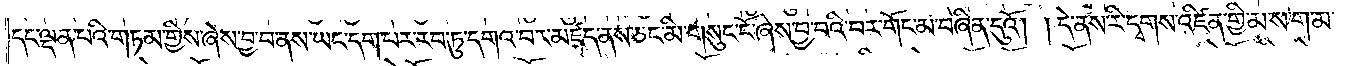དང་ལྡན་པའི་གཏམ་གྱིས་ཞེས་བྱ་བ་ནས་ཡང་དག་པར་རབ་ཏུ་དགའ་བར་མཛད་ནས་ཅང་མི་གསུང་ངོ་ཞེས་བྱ་བའི་བར་གོང་མ་བཞིན་དུའོ། །དེ་ནས་རི་དྭགས་འཛིན་གྱི་མ་ས་ག་མ་
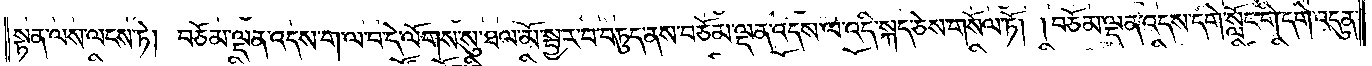སྟན་ལས་ལངས་ཏེ། བཅོམ་ལྡན་འདས་ག་ལ་བ་དེ་ལོགས་སུ་ཐལ་མོ་སྦྱར་བ་བཏུད་ནས་བཅོམ་ལྡན་འདས་ལ་འདི་སྐད་ཅེས་གསོལ་ཏོ། །བཅོམ་ལྡན་འདས་དགེ་སློང་གི་དགེ་འདུན་
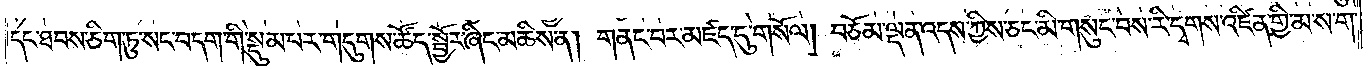དང་ཐབས་ཅིག་ཏུ་སང་བདག་གི་སྡུམ་པར་གདུགས་ཚོད་སྦྱོར་ཞིང་མཆིས་ན། གནང་བར་མཛད་དུ་གསོལ། བཅོམ་ལྡན་འདས་ཀྱིས་ཅང་མི་གསུང་བས་རི་དྭགས་འཛིན་གྱི་མ་ས་ག་
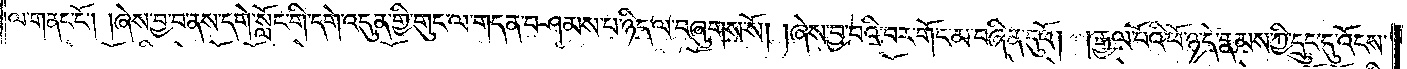ལ་གནང་ངོ༌། །ཞེས་བྱ་བ་ནས་དགེ་སློང་གི་དགེ་འདུན་གྱི་གུང་ལ་གདན་བཤམས་པ་ཉིད་ལ་བཞུགས་སོ། །ཞེས་བྱ་བའི་བར་གོང་མ་བཞིན་དུའོ། །རྒྱལ་པོའི་ཕོ་ཉ་དེ་རྣམས་ཀྱི་དྲུང་དུ་འོངས་
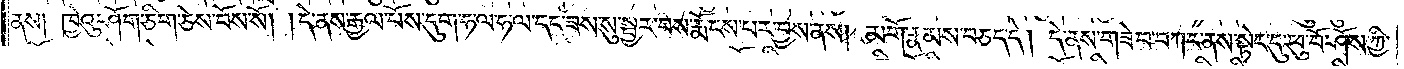ནས། ཁྱེའུ་ཤོག་ཅིག་ཅེས་བོས་སོ། །དེ་ནས་རྒྱལ་པོས་དུག་ཧ་ལ་ལྷ་ལ་དང་ཟས་སུ་སྦྱར་བས་རྨོངས་པར་བྱས་ནས། མགོ་རྣམས་བཅད་དེ། དེ་ནས་གཟེབ་བཀང་ནས་སྟེང་དུ་ཕུ་བོ་ཤོས་ཀྱི་
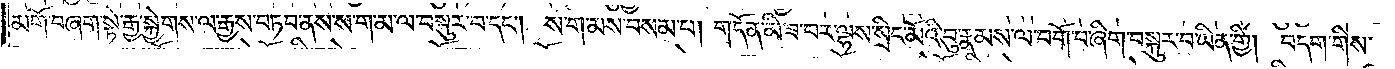མགོ་བཞག་སྟེ་རྒྱ་སྐྱེགས་ལ་རྒྱས་བཏབ་ནས་ས་ག་མ་ལ་བསྐུར་བ་དང༌། ས་ག་མས་བསམ་པ། གདོན་མི་ཟ་བར་ལྷས་སྲིང་མོའི་བུ་རྣམས་ལ་བགོ་བ་ཞིག་བསྐུར་བ་ཡིན་གྱི། བདག་གིས་
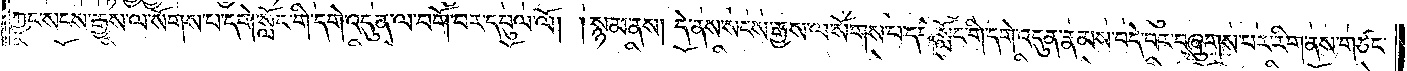ཀྱང་སངས་རྒྱས་ལ་སོགས་པ་དགེ་སློང་གི་དགེ་འདུན་ལ་བགོ་བར་དབུལ་ལོ། །སྙམ་ནས། དེ་ནས་སངས་རྒྱས་ལ་སོགས་པ་དགེ་སློང་གི་དགེ་འདུན་རྣམས་བདེ་བར་བཞུགས་པར་རིག་ནས་གཙང་
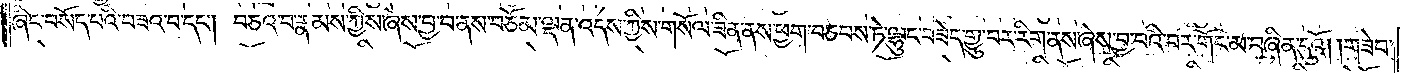ཞིང་བསོད་པའི་བཟའ་བ་དང༌། བཅའ་བ་རྣམས་ཀྱིས་ཞེས་བྱ་བ་ནས་བཅོམ་ལྡན་འདས་ཀྱིས་གསོལ་ཟིན་ནས་ཕྱག་བཅབས་ཏེ་ལྷུང་བཟེད་གྱུར་བར་རིག་ནས་ཞེས་བྱ་བའི་བར་གོང་མ་བཞིན་དུའོ། །གཟེབ་
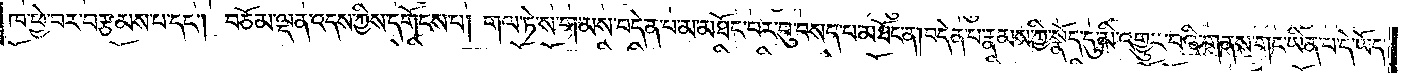ཁ་ཕྱེ་བར་བརྩམས་པ་དང༌། བཅོམ་ལྡན་འདས་ཀྱིས་དགོངས་པ། གལ་ཏེ་ས་ག་མས་བདེན་པ་མ་མཐོང་བར་བུ་བསད་པ་མཐོང་ན། བདེན་པ་རྣམས་ཀྱི་སྣོད་དུ་མི་འགྱུར་བའི་གནས་གང་ཡིན་པ་དེ་ཡོད་
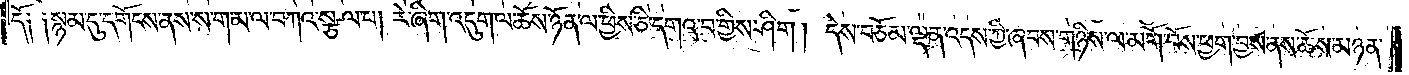དོ། །སྙམ་དུ་དགོངས་ནས་ས་ག་མ་ལ་བཀའ་སྩལ་པ། རེ་ཞིག་འདུག་ལ་ཆོས་ཉོན་ལ་ཕྱིས་ཅི་དགའ་བགྱིས་ཤིག །དེས་བཅོམ་ལྡན་འདས་ཀྱི་ཞབས་གཉིས་ལ་མགོ་བོས་ཕྱག་བྱས་ནས་ཆོས་མཉན་
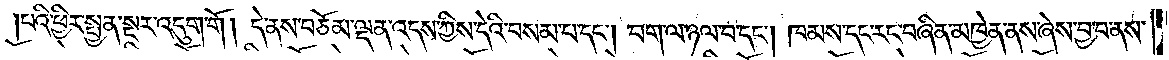པའི་ཕྱིར་སྤྱན་སྔར་འདུག་གོ །དེ་ནས་བཅོམ་ལྡན་འདས་ཀྱིས་དེའི་བསམ་པ་དང༌། བག་ལ་ཉལ་བ་དང༌། ཁམས་དང་རང་བཞིན་མཁྱེན་ནས་ཞེས་བྱ་བ་ནས་
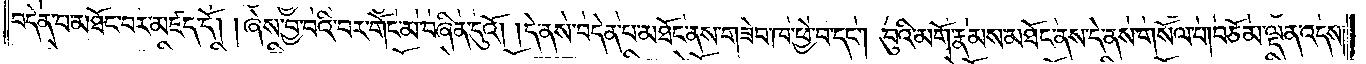བདེན་པ་མཐོང་བར་མཛད་དོ། །ཞེས་བྱ་བའི་བར་གོང་མ་བཞིན་དུའོ། །དེ་ནས་བདེན་པ་མཐོང་ནས་གཟེབ་ཁ་ཕྱེ་བ་དང༌། བུའི་མགོ་རྣམས་མཐོང་ནས་དེ་ནས་གསོལ་བ། བཅོམ་ལྡན་འདས་
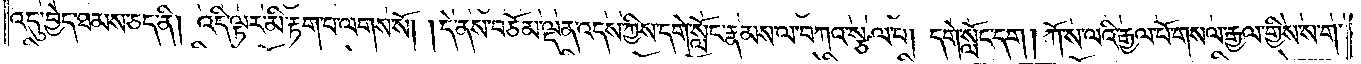འདུ་བྱེད་ཐམས་ཅད་ནི། འདི་ལྟར་མི་རྟག་པ་ལགས་སོ། །དེ་ནས་བཅོམ་ལྡན་འདས་ཀྱིས་དགེ་སློང་རྣམས་ལ་བཀའ་སྩལ་པ། དགེ་སློང་དག །ཀོ་ས་ལའི་རྒྱལ་པོ་གསལ་རྒྱལ་གྱིས་ས་ག་
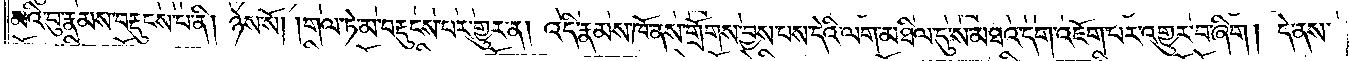མའི་བུ་རྣམས་བརྡུངས་པ་ནི། ཉེས་སོ། །གལ་ཏེ་མ་བརྡུངས་པར་གྱུར་ན། འདི་རྣམས་ཁོ་ནས་གྲོགས་བྱས་པས་དེའི་ལག་མཐིལ་དུ་ས་མཐའ་དག་འཇོག་པར་འགྱུར་བ་ཞིག །དེ་ནས་
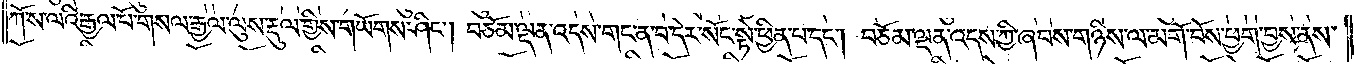ཀོ་ས་ལའི་རྒྱལ་པོ་གསལ་རྒྱལ་ལུས་རྡུལ་གྱིས་གཡོགས་ཤིང༌། བཅོམ་ལྡན་འདས་གང་ན་བ་དེར་སོང་སྟེ་ཕྱིན་པ་དང༌། བཅོམ་ལྡན་འདས་ཀྱི་ཞབས་གཉིས་ལ་མགོ་བོས་ཕྱག་བྱས་ནས་
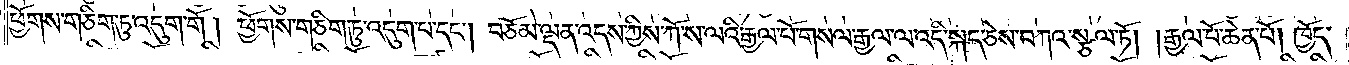ཕྱོགས་གཅིག་ཏུ་འདུག་གོ །ཕྱོགས་གཅིག་ཏུ་འདུག་པ་དང༌། བཅོམ་ལྡན་འདས་ཀྱིས་ཀོ་ས་ལའི་རྒྱལ་པོ་གསལ་རྒྱལ་ལ་འདི་སྐད་ཅེས་བཀའ་སྩལ་ཏོ། །རྒྱལ་པོ་ཆེན་པོ། ཁྱོད་
